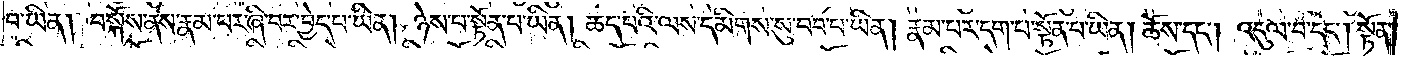བ་ཡིན། བསྐོས་ནས་རྣམ་པར་ཞི་བར་བྱེད་པ་ཡིན། ཉེས་པ་སྟོན་པ་ཡིན། ཆད་པའི་ལས་དམིགས་སུ་བབ་པ་ཡིན། རྣམ་པར་དག་པ་སྟོན་པ་ཡིན། ཆོས་དང༌། འདུལ་བ་དང༌། སྟོན་
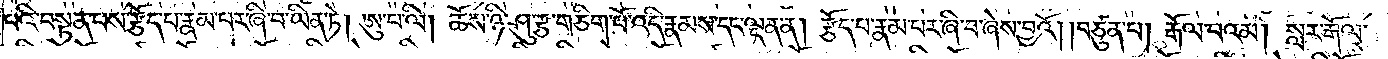པའི་བསྟན་པས་རྩོད་པ་རྣམ་པར་ཞི་བ་ཡིན་ཏེ། ཨུ་པ་ལི། ཆོས་ཉི་ཤུ་རྩ་གཅིག་པོ་འདི་རྣམས་དང་ལྡན་ན། རྩོད་པ་རྣམ་པར་ཞི་བ་ཞེས་བྱའོ། །བཙུན་པ། རྒོལ་བའམ། སླར་རྒོལ་
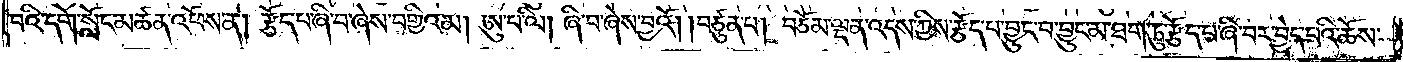བའི་དགེ་སློང་མཚན་འཕོས་ན། རྩོད་པ་ཞི་བ་ཞེས་བགྱིའམ། ཨུ་པ་ལི། ཞི་བ་ཞེས་བྱའོ། །བཙུན་པ། བཅོམ་ལྡན་འདས་ཀྱིས་རྩོད་པ་བྱུང་བ་བྱུང་མ་ཐག་ཏུ་རྩོད་པ་ཞི་བར་བྱེད་པའི་ཆོས་
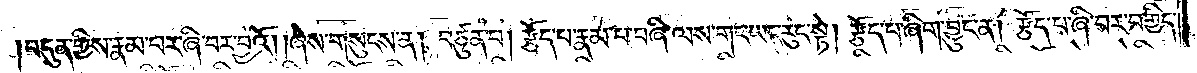བདུན་གྱིས་རྣམ་པར་ཞི་བར་བྱའོ། །ཞེས་གསུངས་ན། བཙུན་པ། རྩོད་པ་རྣམ་པ་བཞི་ལས་གང་ཡང་རུང་སྟེ། རྩོད་པ་ཞིག་བྱུང་ན། རྩོད་པ་ཞི་བར་བགྱིད་
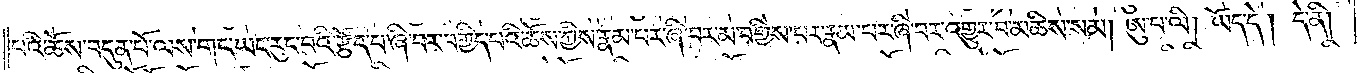པའི་ཆོས་བདུན་པོ་ལས་གང་ཡང་རུང་བའི་རྩོད་པ་ཞི་བར་བགྱིད་པའི་ཆོས་ཀྱིས་རྣམ་པར་ཞི་བར་མ་བགྱིས་པར་རྣམ་པར་ཞི་བར་འགྱུར་བ་མཆིས་སམ། ཨུ་པ་ལི། ཡོད་དེ། དེ་ནི།
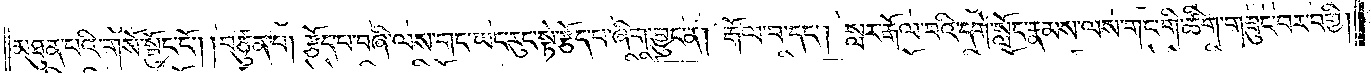མཐུན་པའི་གསོ་སྦྱོང་ངོ༌། །བཙུན་པ། རྩོད་པ་བཞི་ལས་གང་ཡང་རུང་སྟེ་རྩོད་པ་ཞིག་བྱུང་ན། རྒོལ་བ་དང༌། སླར་རྒོལ་བའི་དགེ་སློང་རྣམས་ལས་གང་གི་ཚིག་གཟུང་བར་བགྱི།
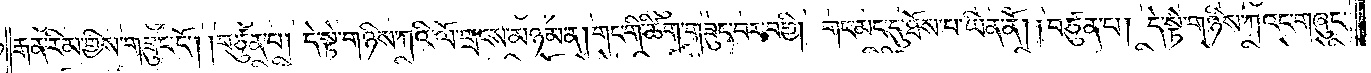རྒན་རིམ་གྱིས་གཟུང་ངོ༌། །བཙུན་པ། དེ་སྟེ་གཉིས་ཀའི་ལོ་གྲངས་མཉམ་ན། གང་གི་ཚིག་གཟུང་བར་བགྱི། གང་མང་དུ་ཐོས་པ་ཡིན་ནོ། །བཙུན་པ། དེ་སྟེ་གཉིས་ཀའང་གཞུང་
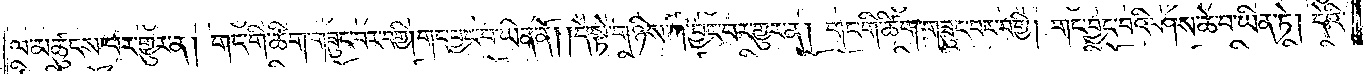ལ་མཚུངས་པར་གྱུར་ན། གང་གི་ཚིག་གཟུང་བར་བགྱི། གང་བྱང་བ་ཡིན་ནོ། །དེ་སྟེ་གཉིས་ཀ་བྱང་བར་གྱུར་ན། གང་གི་ཚིག་གཟུང་བར་བགྱི། གང་བྱང་བའི་ཤས་ཆེ་བ་ཡིན་ཏེ། དེའི་
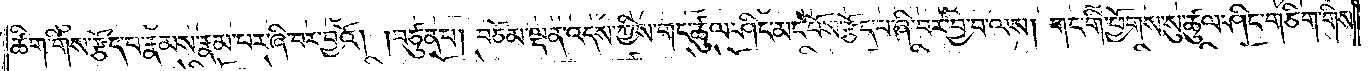ཚིག་གིས་རྩོད་པ་རྣམས་རྣམ་པར་ཞི་བར་བྱའོ། །བཙུན་པ། བཅོམ་ལྡན་འདས་ཀྱིས་གང་ཚུལ་ཤིང་མང་པོས་རྩོད་པ་ཞི་བར་བྱ་བ་ལས། གང་གི་ཕྱོགས་སུ་ཚུལ་ཤིང་གཅིག་གིས་
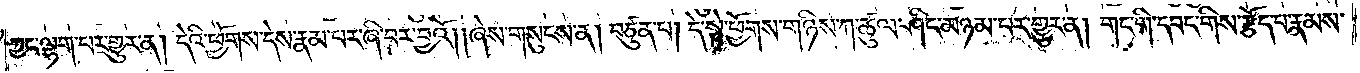ཀྱང་ལྷག་པར་གྱུར་ན། དེའི་ཕྱོགས་དེས་རྣམ་པར་ཞི་བར་བྱའོ། །ཞེས་གསུངས་ན། བཙུན་པ། དེ་སྟེ་ཕྱོགས་གཉིས་ཀ་ཚུལ་ཤིང་མཉམ་པར་གྱུར་ན། གང་གི་དབང་གིས་རྩོད་པ་རྣམས་
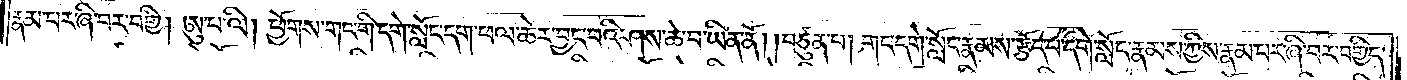རྣམ་པར་ཞི་བར་བགྱི། ཨུ་པ་ལི། ཕྱོགས་གང་གི་དགེ་སློང་དག་ཕལ་ཆེར་བྱང་བའི་ཤས་ཆེ་བ་ཡིན་ནོ། །བཙུན་པ། གང་དགེ་སློང་རྣམས་རྩོད་པ་དགེ་སློང་རྣམས་ཀྱིས་རྣམ་པར་ཞི་བར་བགྱིད་
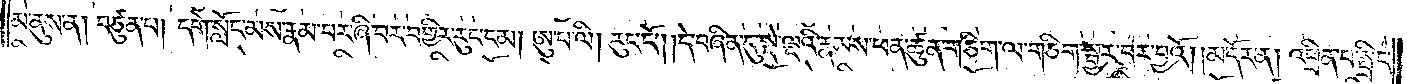མ་ནུས་ན། བཙུན་པ། དགེ་སློང་མས་རྣམ་པར་ཞི་བར་བགྱིར་རུང་ངམ། ཨུ་པ་ལི། རུང་ངོ༌། །དེ་བཞིན་དུ་སྡེ་ལྔའི་རྣམས་ཕན་ཚུན་གཅིག་ལ་གཅིག་སྦྱར་བར་བྱའོ། །མདོར་ན། འཕྲིན་པ་སྤྲིང་
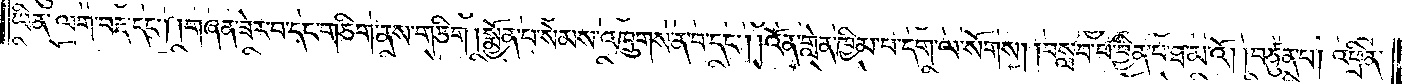ཡིན་ལག་བརྡ་དང༌། །གཞན་ཟེར་བ་དང་གཅིག་ནས་གཅིག །སྨྱོན་པ་སེམས་འཁྲུགས་ན་བ་དང༌། །འོན་གླེན་ཁྱིམ་པ་དག་ལ་སོགས། །བསླབ་པ་བྱིན་པ་ཐ་མ་འོ། །བཙུན་པ། འཕྲིན་
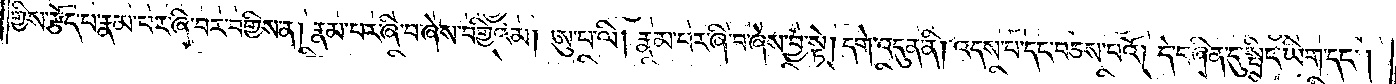གྱིས་རྩོད་པ་རྣམ་པར་ཞི་བར་བགྱིས་ན། རྣམ་པར་ཞི་བ་ཞེས་བགྱིའམ། ཨུ་པ་ལི། རྣམ་པར་ཞི་བ་ཞེས་བྱ་སྟེ། དགེ་འདུན་ནི། འདས་པ་དང་བཅས་པའོ། །དེ་བཞིན་དུ་སྤྲིང་ཡིག་དང༌།
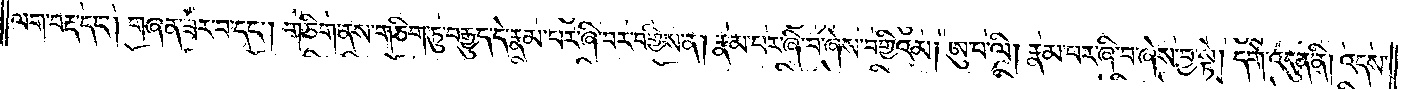ལག་བརྡ་དང༌། གཞན་ཟེར་བ་དང༌། གཅིག་ནས་གཅིག་ཏུ་བརྒྱུད་དེ་རྣམ་པར་ཞི་བར་བགྱིས་ན། རྣམ་པར་ཞི་བ་ཞེས་བགྱིའམ། ཨུ་པ་ལི། རྣམ་པར་ཞི་བ་ཞེས་བྱ་སྟེ། དགེ་འདུན་ནི། འདས་
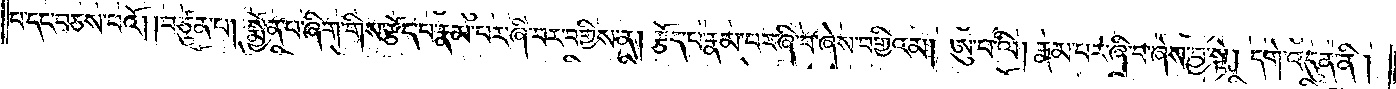པ་དང་བཅས་པའོ། །བཙུན་པ། སྨྱོན་པ་ཞིག་གིས་རྩོད་པ་རྣམ་པར་ཞི་བར་བགྱིས་ན། རྩོད་པ་རྣམ་པར་ཞི་བ་ཞེས་བགྱིའམ། ཨུ་པ་ལི། རྣམ་པར་ཞི་བ་ཞེས་བྱ་སྟེ། དགེ་འདུན་ནི།
